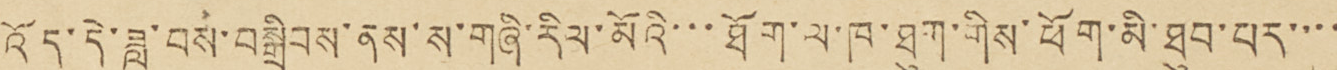འོད་དེ་ཟླ་བས་བསྒྲིབས་ནས་ས་གཞི་རིལ་མོའི་་་ཐོག་ལ་ཁ་ཐུག་གིས་ཕོག་མི་ཐུབ་པར་་་་་
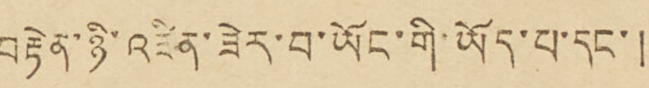བརྟེན་ཉི་འཛིན་ཟེར་བ་ཡོང་གི་ཡོད་པ་དང་།
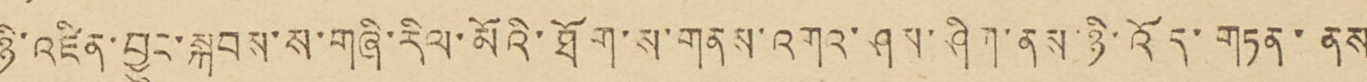ཉི་འཛིན་བྱུང་སྐབས་ས་གཞི་རིལ་མོའི་ཐོག་ས་གནས་འགའ་ཤས་ཤིག་ནས་ཉི་འོད་གཏན་ནས་
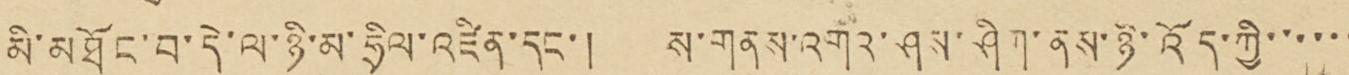མི་མཐོང་བ་དེ་ལ་ཉི་མ་ཧྲིལ་འཛིན་དང་། ས་གནས་འགའ་ཤས་ཤིག་ནས་ཉི་འོད་ཀྱི་་་་་་་
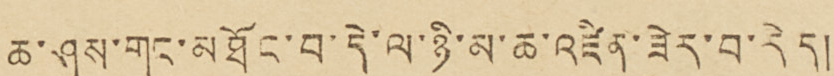ཆ་ཤས་གང་མཐོང་བ་དེ་ལ་ཉི་མ་ཆ་འཛིན་ཟེར་བ་རེད།
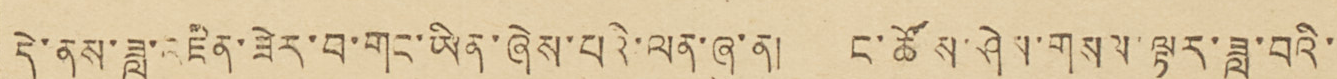དེ་ནས་ཟླ་འཛིན་ཟེར་བ་གང་ཡིན་ཞེས་པའི་ལན་ཞུ་ན། ང་ཚོས་ཤེས་གསལ་ལྟར་ཟླ་བའི་་་
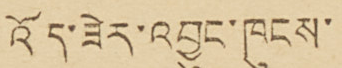འོད་ཟེར་འབྱུང་ཁུངས་
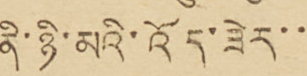ནི་ཉི་མའི་འོད་ཟེར་་་
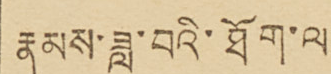རྣམས་ཟླ་བའི་ཐོག་ལ་
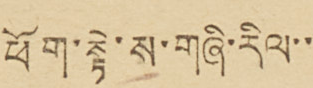ཕོག་སྟེ་ས་གཞི་རིལ་་་
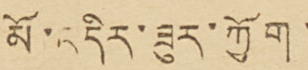མོ་འདིར་ཟུར་ཀྱོག་་
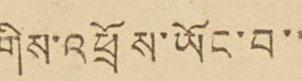གིས་འཕྲོས་ཡོང་བ་་་
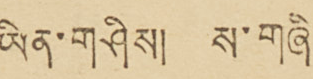ཡིན་གཤིས། ས་གཞི་
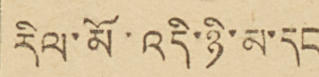རིལ་མོ་འདི་ཉི་མ་དང་
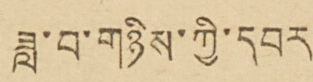ཟླ་བ་གཉིས་ཀྱི་དབར་་
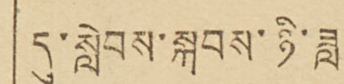དུ་སླེབས་སྐབས་ཉི་ཟླ་
